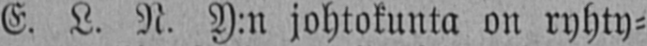E. L. N. Y:n johtokunta on ryhty-
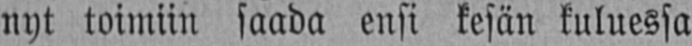nyt toimiin saada ensi kesän kuluessa
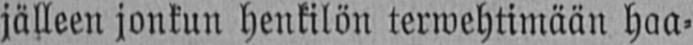jälleen jonkun henkilön terwehtimään haa-
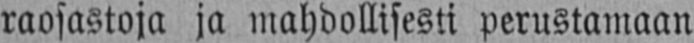raosastoja ja mahdollisesti perustamaan
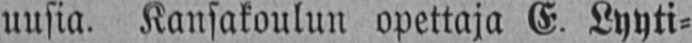uusia. Kansakoulun opettaja E. Lyyti-
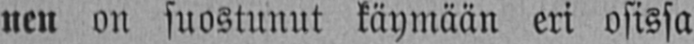nen on suostunut käymään eri osissa
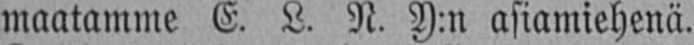maatamme E. L. N. Y:n asiamiehenä.
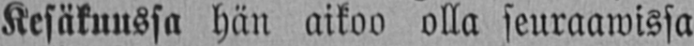Kesäkuussa hän aikoo olla seuraawissa
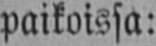paikoissa:
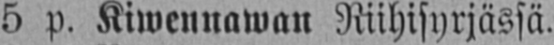5 p. Kiwennawan Riihisyrjässä.
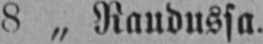8 „ Raudussa.
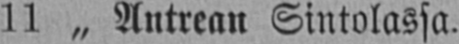11 „ Antrean Sintolassa.
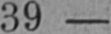39
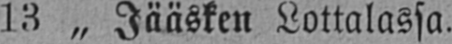13 „ Jääsken Lottalassa.
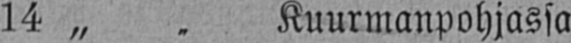14 „ „ Kuurmanpohjassa
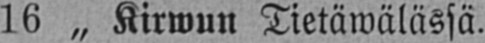16 „ Kirwun Tietäwälässä.
